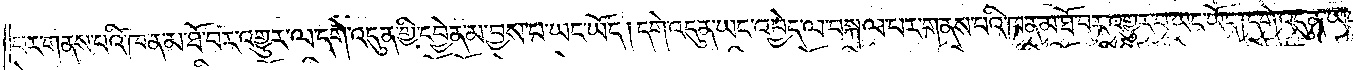པར་གནས་པའི་ཁ་ན་མ་ཐོ་བར་འགྱུར་ལ་དགེ་འདུན་གྱི་དབྱེན་མ་བྱས་པ་ཡང་ཡོད། དགེ་འདུན་ཡང་འབྱེད་ལ་བསྐལ་པར་གནས་པའི་ཁ་ན་མ་ཐོ་བར་འགྱུར་བ་ཡང་ཡོད། དགེ་འདུན་ཡང་མ་
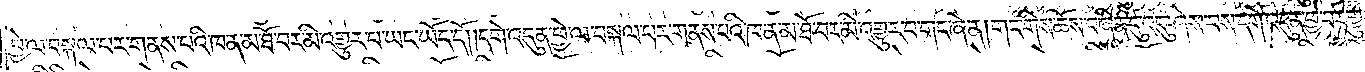བྱེ་ལ་བསྐལ་པར་གནས་པའི་ཁ་ན་མ་ཐོ་བར་མི་འགྱུར་པ་ཡང་ཡོད་དོ། །དགེ་འདུན་ཕྱེ་ལ་བསྐལ་པར་གནས་པའི་ཁ་ན་མ་ཐོ་བར་མི་འགྱུར་བ་གང་ཞེ་ན། གང་གིས་ཆོས་བཞིན་དུ་འདུ་ཤེས་བས་དགེ་འདུན་ཕྱེ་བར་གྱུར་
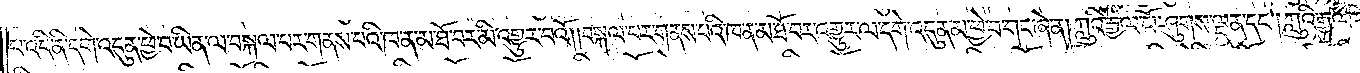པ་འདི་ནི་དགེ་འདུན་ཕྱེ་བ་ཡིན་ལ་བསྐལ་པར་གནས་པའི་ཁ་ན་མ་ཐོ་བར་མི་འགྱུར་པའོ། །བསྐལ་པར་གནས་པའི་ཁ་ན་མ་ཐོ་བར་འགྱུར་ལ་དགེ་འདུན་མ་ཕྱེ་བ་གང་ཞེ་ན། ཀླུའི་རྒྱལ་པོ་ཤུགས་ལྡན་དང༌། ཀླུའི་རྒྱལ་པོ་
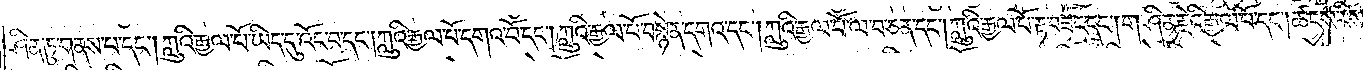ཤིན་ཏུ་གནས་པ་དང༌། ཀླུའི་རྒྱལ་པོ་ཡིད་དུ་འོང་བ་དང༌། ཀླུའི་རྒྱལ་པོ་དགའ་བོ་དང༌། ཀླུའི་རྒྱལ་པོ་བསྙེན་དགའ་དང༌། ཀླུའི་རྒྱལ་པོ་ལ་བ་ཅན་དང༌། ཀླུའི་རྒྱལ་པོ་རྟ་བཟང་དང༌། གཤིན་རྗེའི་རྒྱལ་པོ་དང༌། ཚངས་རིས་
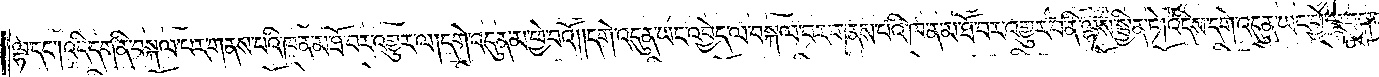ལྷ་དང༌། འདི་དག་ནི་བསྐལ་པར་གནས་པའི་ཁ་ན་མ་ཐོ་བར་འགྱུར་ལ། དགེ་འདུན་མ་ཕྱེ་བའོ། །དགེ་འདུན་ཡང་འབྱེད་ལ་བསྐལ་པར་གནས་པའི་ཁ་ན་མ་ཐོ་བར་འགྱུར་བ་ནི་ལྷས་སྦྱིན་ཏེ། འདིས་དགེ་འདུན་ཡང་ཕྱེ་ལ་བསྐལ་
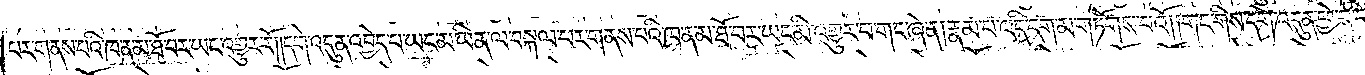པར་གནས་པའི་ཁ་ན་མ་ཐོ་བར་ཡང་འགྱུར་རོ། །དགེ་འདུན་འབྱེད་པ་ཡང་མ་ཡིན་ལ་བསྐལ་པར་གནས་པའི་ཁ་ན་མ་ཐོ་བར་ཡང་མི་འགྱུར་བ་གང་ཞེ་ན། རྣམ་པ་འདི་དག་མ་གཏོགས་པའོ། །གང་གིས་དགེ་འདུན་ཕྱེ་བ་དེ་
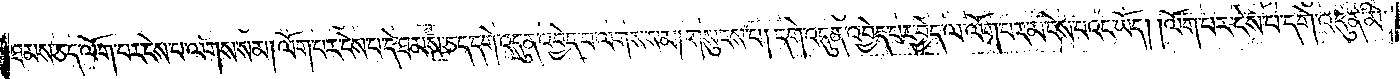ཐམས་ཅད་ལོག་པར་ངེས་པ་ལགས་སམ། ལོག་པར་ངེས་པ་དེ་ཐམས་ཅད་དགེ་འདུན་འབྱེད་པ་ལགས་སམ། གསུངས་པ། དགེ་འདུན་འབྱེད་པར་བྱེད་ལ་ལོག་པར་མ་ངེས་པའང་ཡོད། ལོག་པར་ངེས་པ་དགེ་འདུན་མི་
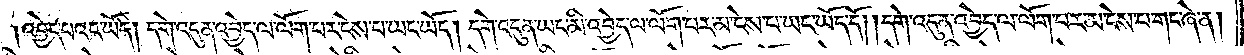འབྱེད་པའང་ཡོད། དགེ་འདུན་འབྱེད་ལ་ལོག་པར་ངེས་པ་ཡང་ཡོད། དགེ་འདུན་ཡང་མི་འབྱེད་ལ་ལོག་པར་མ་ངེས་པ་ཡང་ཡོད་དོ། །དགེ་འདུན་འབྱེད་ལ་ལོག་པར་མ་ངེས་པ་གང་ཞེ་ན།
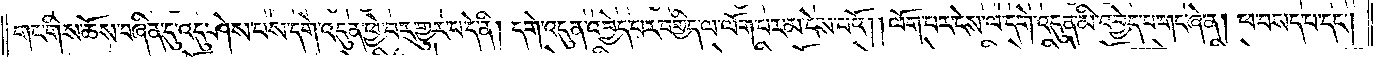གང་གིས་ཆོས་བཞིན་དུ་འདུ་ཤེས་པས་དགེ་འདུན་ཕྱེ་བར་གྱུར་པ་དེ་ནི། དགེ་འདུན་འབྱེད་པར་བགྱིད་ལ་ལོག་པར་མ་ངེས་པའོ། །ལོག་པར་ངེས་ལ་དགེ་འདུན་མི་འབྱེད་པ་གང་ཞེ་ན། ཕ་བསད་པ་དང༌།
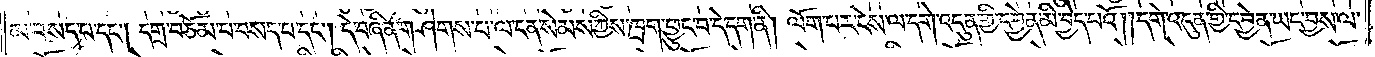མ་བསད་པ་དང༌། དགྲ་བཅོམ་པ་བསད་པ་དང༌། དེ་བཞིན་གཤེགས་པ་ལ་ངན་སེམས་ཀྱིས་ཁྲག་ཕྱུང་བ་དེ་དག་ནི། ལོག་པར་ངེས་ལ་དགེ་འདུན་གྱི་དབྱེན་མི་བྱེད་པའོ། །དགེ་འདུན་གྱི་དབྱེན་ཡང་བྱས་ལ་
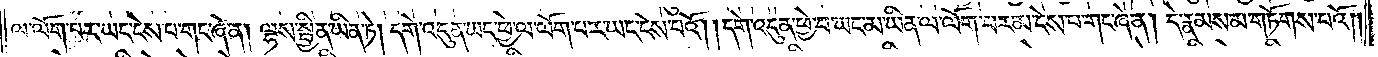ལ་ལོག་པར་ཡང་ངེས་པ་གང་ཞེ་ན། ལྷས་སྦྱིན་ཡིན་ཏེ། དགེ་འདུན་ཡང་ཕྱེ་ལ་ལོག་པར་ཡང་ངེས་པའོ། །དགེ་འདུན་ཕྱེ་བ་ཡང་མ་ཡིན་ལ་ལོག་པར་མ་ངེས་པ་གང་ཞེ་ན། དེ་རྣམས་མ་གཏོགས་པའོ། །
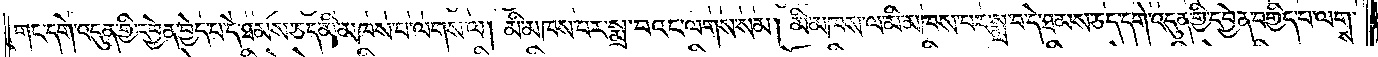གང་དགེ་འདུན་གྱི་དབྱེན་བྱེད་པ་དེ་ཐམས་ཅད་མི་མཁས་པ་ལགས་ལ། མི་མཁས་པར་སྨྲ་བའང་ལགས་སམ། མི་མཁས་ལ་མི་མཁས་པར་སྨྲ་བ་དེ་ཐམས་ཅད་དགེ་འདུན་གྱི་དབྱེན་བགྱིད་པ་ལགས་
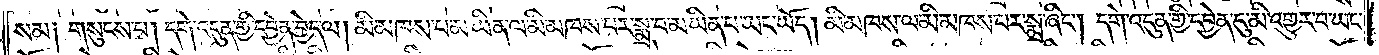སམ། གསུངས་པ། དགེ་འདུན་གྱི་དབྱེན་བྱེད་ལ། མི་མཁས་པ་མ་ཡིན་ལ་མི་མཁས་པར་སྨྲ་བ་མ་ཡིན་པ་ཡང་ཡོད། མི་མཁས་ལ་མི་མཁས་པར་སྨྲ་ཞིང༌། དགེ་འདུན་གྱི་དབྱེན་དུ་མི་འགྱུར་བ་ཡང་
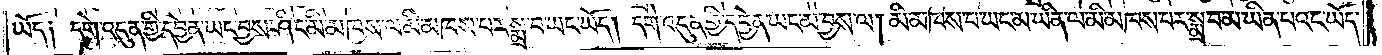ཡོད༑ དགེ་འདུན་གྱི་དབྱེན་ཡང་བྱས་ཤིང་མི་མཁས་ལ་མི་མཁས་པར་སྨྲ་བ་ཡང་ཡོད། དགེ་འདུན་གྱི་དབྱེན་ཡང་མ་བྱས་ལ། མི་མཁས་པ་ཡང་མ་ཡིན་ལ་མི་མཁས་པར་སྨྲ་བ་མ་ཡིན་པའང་ཡོད་
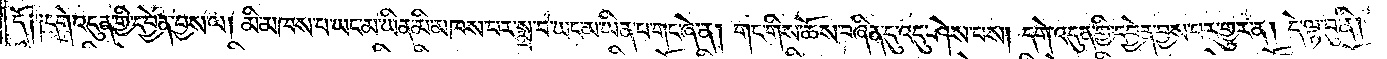དོ༑ ༑དགེ་འདུན་གྱི་དབྱེན་བྱས་ལ། མི་མཁས་པ་ཡང་མ་ཡིན་མི་མཁས་པར་སྨྲ་བ་ཡང་མ་ཡིན་པ་གང་ཞེ་ན། གང་གིས་ཆོས་བཞིན་དུ་འདུ་ཤེས་པས། དགེ་འདུན་གྱི་དབྱེན་བྱས་པར་གྱུར་ན། དེ་ལྟ་བུ་ནི།
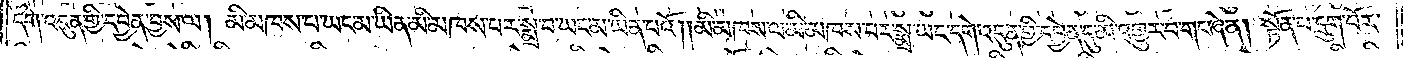དགེ་འདུན་གྱི་དབྱེན་བྱས་ལ། མི་མཁས་པ་ཡང་མ་ཡིན་མི་མཁས་པར་སྨྲ་བ་ཡང་མ་ཡིན་པའོ། །མི་མཁས་ལ་མི་མཁས་པར་སྨྲ་ཡང་དགེ་འདུན་གྱི་དབྱེན་དུ་མི་འགྱུར་བ་གང་ཞེ་ན། སྟོན་པ་དྲུག་པོར་
